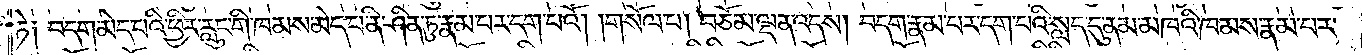ཏེ༑ བདག་མེད་པའི་ཕྱིར་རླུང་གི་ཁམས་མེད་པ་ནི་ཤིན་ཏུ་རྣམ་པར་དག་པའོ། །གསོལ་པ། བཅོམ་ལྡན་འདས། བདག་རྣམ་པར་དག་པའི་སླད་དུ་ནམ་མཁའི་ཁམས་རྣམ་པར་
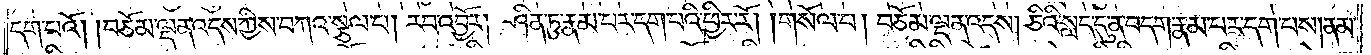དག་པའོ། །བཅོམ་ལྡན་འདས་ཀྱིས་བཀའ་སྩལ་པ། རབ་འབྱོར། ཤིན་ཏུ་རྣམ་པར་དག་པའི་ཕྱིར་རོ། །གསོལ་པ། བཅོམ་ལྡན་འདས། ཅིའི་སླད་དུ་ན་བདག་རྣམ་པར་དག་པས། ནམ་
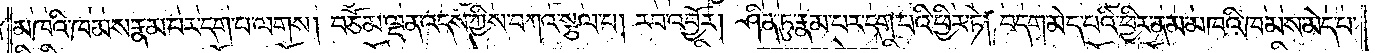མཁའི་ཁམས་རྣམ་པར་དག་པ་ལགས། བཅོམ་ལྡན་འདས་ཀྱིས་བཀའ་སྩལ་པ། རབ་འབྱོར། ཤིན་ཏུ་རྣམ་པར་དག་པའི་ཕྱིར་ཏེ། བདག་མེད་པའི་ཕྱིར་ནམ་མཁའི་ཁམས་མེད་པ་
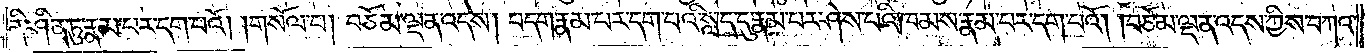ནི་ཤིན་ཏུ་རྣམ་པར་དག་པའོ། །གསོལ་པ། བཅོམ་ལྡན་འདས། བདག་རྣམ་པར་དག་པའི་སླད་དུ་རྣམ་པར་ཤེས་པའི་ཁམས་རྣམ་པར་དག་པའོ། །བཅོམ་ལྡན་འདས་ཀྱིས་བཀའ་
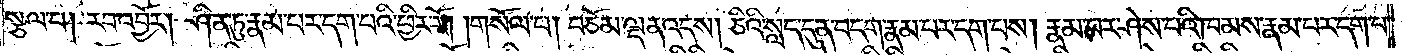སྩལ་པ། རབ་འབྱོར། ཤིན་ཏུ་རྣམ་པར་དག་པའི་ཕྱིར་རོ། །གསོལ་པ། བཅོམ་ལྡན་འདས། ཅིའི་སླད་དུ་ན་བདག་རྣམ་པར་དག་པས། རྣམ་པར་ཤེས་པའི་ཁམས་རྣམ་པར་དག་པ་
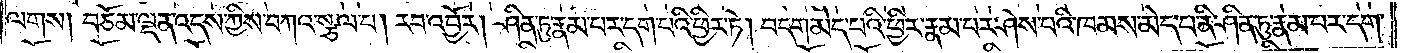ལགས། བཅོམ་ལྡན་འདས་ཀྱིས་བཀའ་སྩལ་པ། རབ་འབྱོར། ཤིན་ཏུ་རྣམ་པར་དག་པའི་ཕྱིར་ཏེ། བདག་མེད་པའི་ཕྱིར་རྣམ་པར་ཤེས་པའི་ཁམས་མེད་པ་ནི་ཤིན་ཏུ་རྣམ་པར་དག་
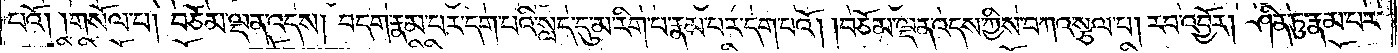པའོ། །གསོལ་པ། བཅོམ་ལྡན་འདས། བདག་རྣམ་པར་དག་པའི་སླད་དུ་མ་རིག་པ་རྣམ་པར་དག་པའོ། །བཅོམ་ལྡན་འདས་ཀྱིས་བཀའ་སྩལ་པ། རབ་འབྱོར། ཤིན་ཏུ་རྣམ་པར་
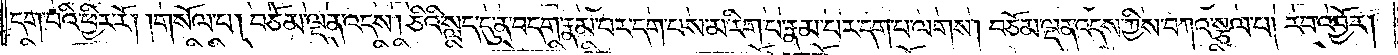དག་པའི་ཕྱིར་རོ། །གསོལ་པ། བཅོམ་ལྡན་འདས། ཅིའི་སླད་དུ་ན་བདག་རྣམ་པར་དག་པས་མ་རིག་པ་རྣམ་པར་དག་པ་ལགས། བཅོམ་ལྡན་འདས་ཀྱིས་བཀའ་སྩལ་པ། རབ་འབྱོར།
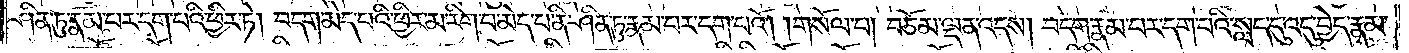ཤིན་ཏུ་རྣམ་པར་དག་པའི་ཕྱིར་ཏེ། བདག་མེད་པའི་ཕྱིར་མ་རིག་པ་མེད་པ་ནི་ཤིན་ཏུ་རྣམ་པར་དག་པའོ། །གསོལ་པ། བཅོམ་ལྡན་འདས། བདག་རྣམ་པར་དག་པའི་སླད་དུ་འདུ་བྱེད་རྣམ་
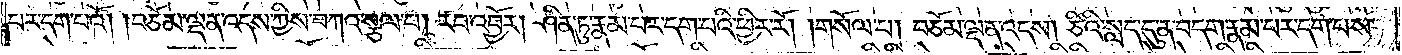པར་དག་པའོ། །བཅོམ་ལྡན་འདས་ཀྱིས་བཀའ་སྩལ་པ། རབ་འབྱོར། ཤིན་ཏུ་རྣམ་པར་དག་པའི་ཕྱིར་རོ། གསོལ་པ། བཅོམ་ལྡན་འདས། ཅིའི་སླད་དུ་ན་བདག་རྣམ་པར་དག་པས་
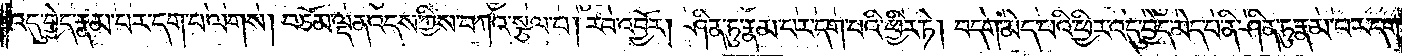འདུ་བྱེད་རྣམ་པར་དག་པ་ལགས། བཅོམ་ལྡན་འདས་ཀྱིས་བཀའ་སྩལ་པ། རབ་འབྱོར། ཤིན་ཏུ་རྣམ་པར་དག་པའི་ཕྱིར་ཏེ། བདག་མེད་པའི་ཕྱིར་འདུ་བྱེད་མེད་པ་ནི་ཤིན་ཏུ་རྣམ་པར་དག་
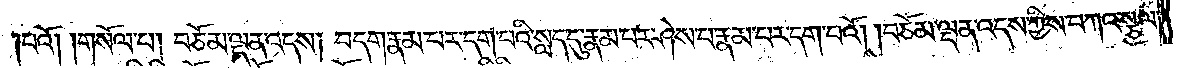པའོ། །གསོལ་པ། བཅོམ་ལྡན་འདས། བདག་རྣམ་པར་དག་པའི་སླད་དུ་རྣམ་པར་ཤེས་པ་རྣམ་པར་དག་པའོ། །བཅོམ་ལྡན་འདས་ཀྱིས་བཀའ་སྩལ་
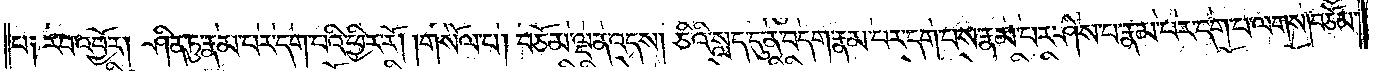པ༑ རབ་འབྱོར། ཤིན་ཏུ་རྣམ་པར་དག་པའི་ཕྱིར་རོ། །གསོལ་པ། བཅོམ་ལྡན་འདས། ཅིའི་སླད་དུ་ན་བདག་རྣམ་པར་དག་པས་རྣམ་པར་ཤེས་པ་རྣམ་པར་དག་པ་ལགས། བཅོམ་
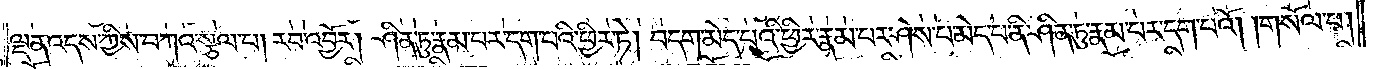ལྡན་འདས་ཀྱིས་བཀའ་སྩལ་པ། རབ་འབྱོར། ཤིན་ཏུ་རྣམ་པར་དག་པའི་ཕྱིར་ཏེ། བདག་མེད་པའི་ཕྱིར་རྣམ་པར་ཤེས་པ་མེད་པ་ནི་ཤིན་ཏུ་རྣམ་པར་དག་པའོ། །གསོལ་པ།
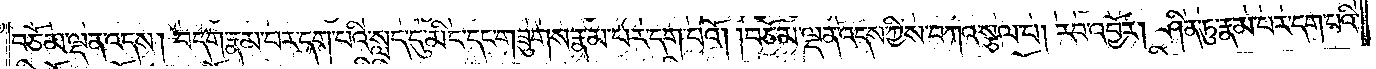བཅོམ་ལྡན་འདས། བདག་རྣམ་པར་དག་པའི་སླད་དུ་མིང་དང་གཟུགས་རྣམ་པར་དག་པའོ། །བཅོམ་ལྡན་འདས་ཀྱིས་བཀའ་སྩལ་པ། རབ་འབྱོར། ཤིན་ཏུ་རྣམ་པར་དག་པའི་
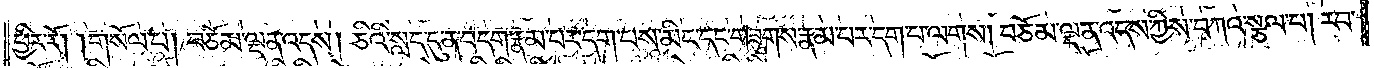ཕྱིར་རོ། །གསོལ་པ། བཅོམ་ལྡན་འདས། ཅིའི་སླད་དུ་ན་བདག་རྣམ་པར་དག་པས་མིང་དང་གཟུགས་རྣམ་པར་དག་པ་ལགས། བཅོམ་ལྡན་འདས་ཀྱིས་བཀའ་སྩལ་པ། རབ་
